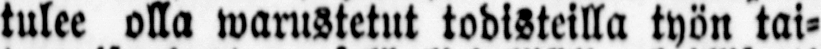tulee olla warustetut todisteilla työn tai-
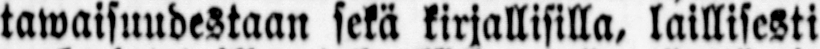tawaisuudestaan sekä kirjallisilla, laillisesti
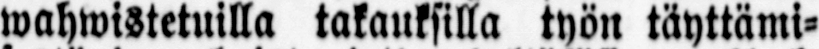wahwistetuilla takauksilla työn täyttämi-
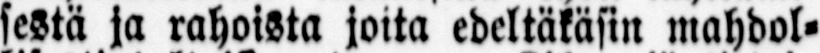sestä ja rahoista joita edeltäkäsin mahdol-
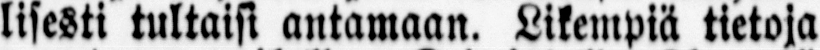lisesti tultaisi antamaan. Likempiä tietoja
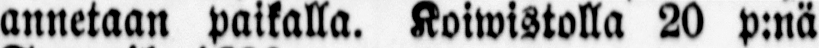annetaan paikalla. Koiwistolla 20 p:nä
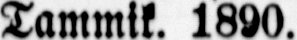Tammik. 1890.
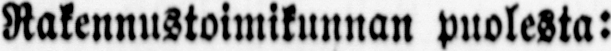Rakennustoimikunnan puolesta:
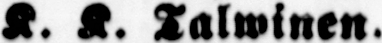K. K. Talwinen.
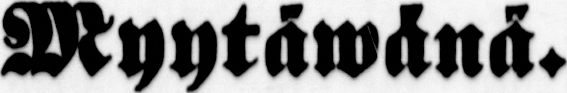Myytäwänä.
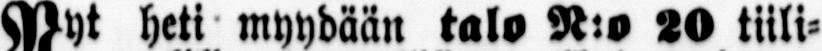Nyt heti myydään talo N:o 20 tiili-
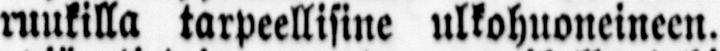ruukilla tarpeellisine ulkohuoneineen.
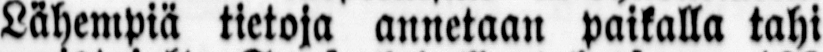Lähempiä tietoja annetaan paikalla tahi
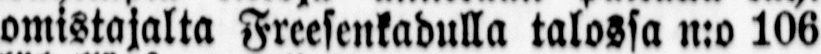omistajalta Freesenkadulla talossa n:o 106
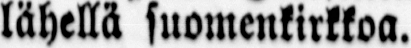lähellä suomenkirkkoa.
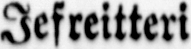Jefreitteri
